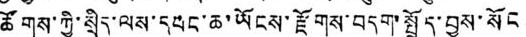ཚོགས་ཀྱི་སྲིད་ལས་དབང་ཆ་ཡོངས་རྫོགས་བདག་སྤྲོད་བྱས་སོང
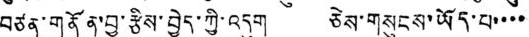བཙན་གནོན་བྱ་རྩིས་བྱེད་ཀྱི་འདུག ཅེས་གསུངས་ཡོད་པ་་་་
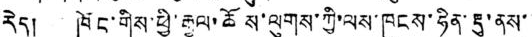རེད། ཁོང་གིས་ཕྱི་རྒྱལ་ཆོས་ལུགས་ཀྱི་ལས་ཁུངས་ཧིན་རྡུ་ནས་
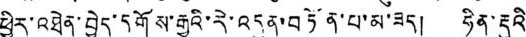ཕྱིར་འཐེན་བྱེད་དགོས་རྒྱུའི་རེ་འདུན་བཏོན་པ་མ་ཟད། ཧིན་རྡུའི
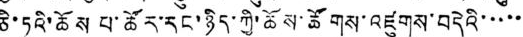ཅི་ཏུའི་ཆོས་ཚོར་རང་ཉིད་ཀྱི་ཆོས་ཚོགས་འཛུགས་བདེའི་་་་་
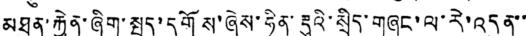མཐུན་རྐྱེན་ཞིག་སྤྲད་དགོས་ཞེས་ཧིན་རྡུའི་སྲིད་གཞུང་ལ་རེ་འདུན་་
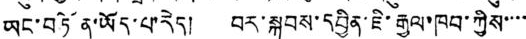ཡང་བཏོན་ཡོད་པ་རེད། བར་སྐབས་དབྱིན་ཇི་རྒྱལ་ཁབ་ཀྱིས་་་་
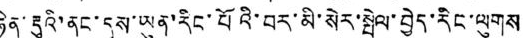ཧིན་རྡུའི་ནང་དུས་ཡུན་རིང་པོའི་བར་མི་སེར་སྤེལ་བྱེད་རིང་ལུགས
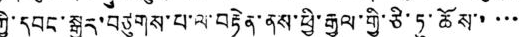ཀྱི་དབང་སྒྱུར་བཙུགས་པ་བརྟེན་ནས་ཕྱི་རྒྱལ་གྱི་ཅི་ཏུ་ཆོས་་་་་
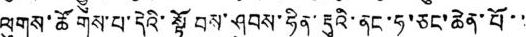ལུགས་ཚོགས་པ་དེའི་སྟོབས་ཤུབས་ཧིན་རྡུའི་ནང་ཧ་ཅང་ཆེན་པོ་་
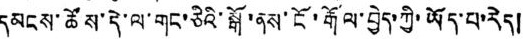དམངས་ཚོས་དེ་ལ་གང་ཅིའི་སྒོ་ནས་ངོ་རྒོལ་བྱེད་ཀྱི་ཡོད་པ་རེད།
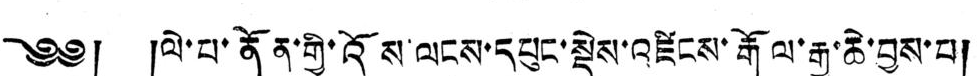༄༅། །ལེ་པ་ནོན་གྱི་འོས་ལངས་དཔུང་སྡེབས་འཛིངས་རྒོལ་རྒྱ་ཆེ་བྱས་པ།
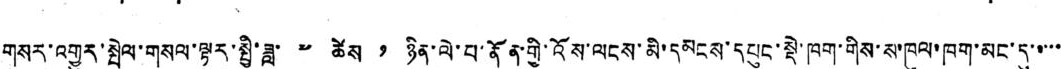གསར་འགྱུར་སྤེལ་གསལ་ལྟར་སྤྱི་ཟླ་ ༧ ཚེས ༡ ཉིན་ལེ་པ་ནོན་གྱི་འོས་ལངས་མི་དམངས་དཔུང་སྡེ་ཁག་གིས་ས་ཁུལ་ཁག་མང་དུ་་་་་
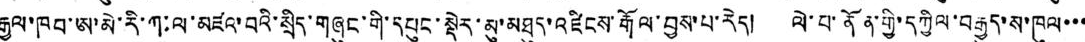རྒྱལ་ཁབ་ཨ་མེ་རི་ཀ་ལ་མཛའ་བའི་སྲིད་གཞུང་གི་དཔུང་སྡེར་མུ་མཐུད་འཛིངས་རྒོལ་བྱས་པ་རེད། ལེ་པ་ནོན་གྱི་དཀྱིལ་བརྒྱུད་ས་ཁུལ་་་
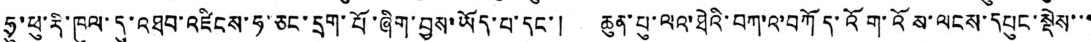ཧྲུ་ཕུ་རི་ཁུལ་དུ་འཐབ་འཛིངས་ཧ་ཅང་དྲག་པོ་ཞིག་བྱས་ཡོད་པ་དང་། ཆུན་པུ་ལའ་ཐེའི་བཀ་འ་བཀོད་འོག་འོས་ལངས་དཔུང་སྡེས་་་
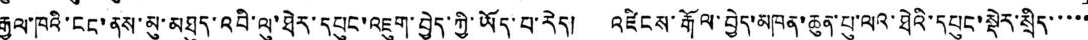རྒྱལ་ཁའི་ངང་ནས་མུ་མཐུད་འབི་ལུ་ཐེར་དཔུང་འཇུག་བྱེད་ཀྱི་ཡོད་པ་རེད། འཛིངས་རྒོལ་བྱེད་མཁན་ཆུན་པུ་ལའ་ཐེའི་དཔུང་སྡེར་སྲིད་་་་་
